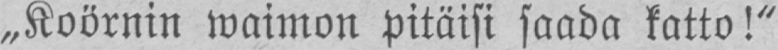„Koörnin waimon pitäisi saada katto!"
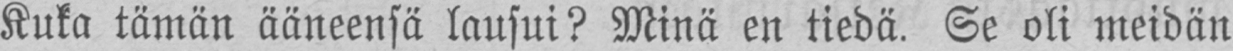Kuka tämän ääneensä lausui? Minä en tiedä. Se oli meidän
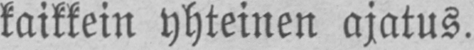kaikkein yhteinen ajatus.
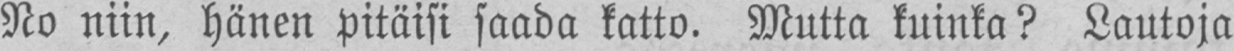No niin, hänen pitäisi saada katto. Mutta kuinka? Lautoja
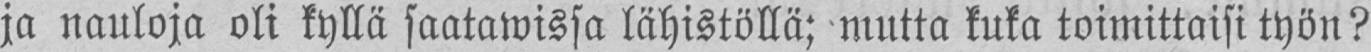ja nauloja oli kyllä saatawissa lähistöllä; mutta kuka toimittaisi työn?
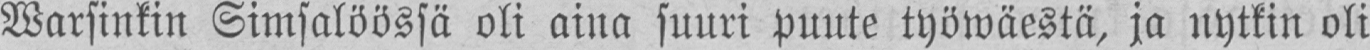Warsinkin Simsalöössä oli aina suuri puute työwäestä, ja nytkin oli
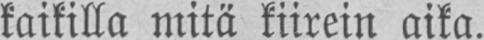kaikilla mitä kiirein aika.
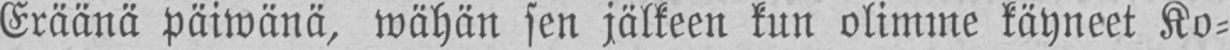Eräänä päiwänä, wähän sen jälkeen kun olimme käyneet Ko-
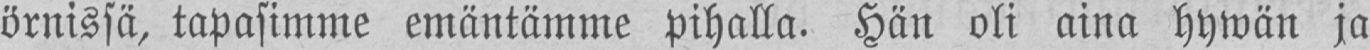örnissä, tapasimme emäntämme pihalla. Hän oli aina hywän ja
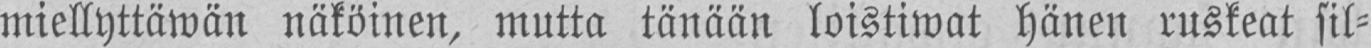miellyttäwän näköinen, mutta tänään loistiwat hänen ruskeat sil-
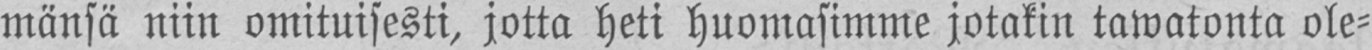mänsä niin omituisesti, jotta heti huomasimme jotakin tawatonta ole-
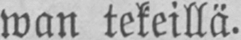wan tekeillä.
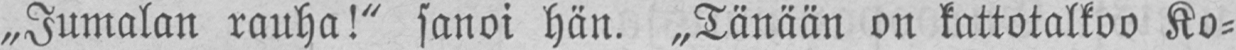„Jumalan rauha!" sanoi hän. „Tänään on kattotalkoo Ko-
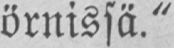örnissä."
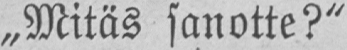„Mitäs sanotte?"
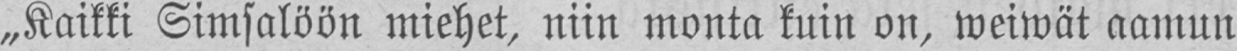„Kaikki Simsalöön miehet, niin monta kuin on, weiwät aamun
